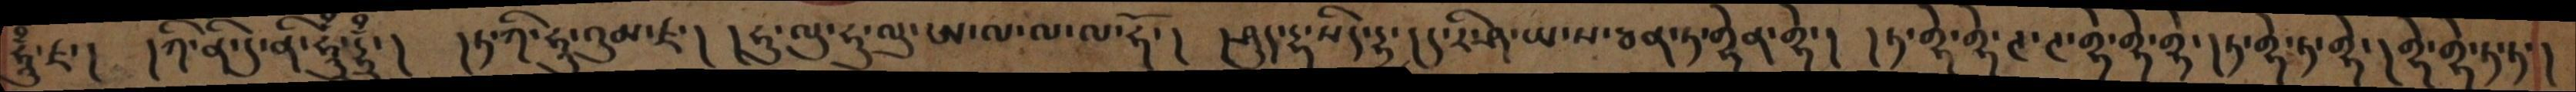ཧཱུཾ་ཛ་།   །ཀི་ནི་དུ་ནི་ཧཱུཾ་ཧཱུཾ་།   །ཏ་ཀི་ཧཱུ་འུམ་ཛ་།  །ཧུ་ལུ་ཧུ་ལུ་ཨ་ལ་ལ་ལ་ཧོ་།  །ཤུད་དྷ་སིད་དྷ་དར་རངིན་ཡ་ས་ཅན་ཏ་གྷེན་གྷེ་། །ཏ་གྷེ་གྷེ་ཊ་ཊ་གྷེ་གྷེ་གྷེ་དཏ་གྷེ་ཏ་གྷེ་དགྷེ་གྷེ་་ཏ་ཏ་།
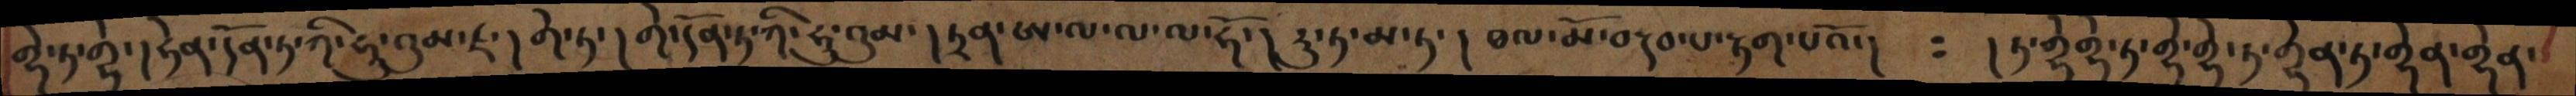གྷེ་ཏ་གྷེ་།ཧེན་དོན་ཏ་ཀི་ཧཱུ་འུམ་ཛ་།  གེ་ཏ་།གེ་དོན་ཏ་ཀི་ཧཱུ་འུམ་།  ཏྲན་ཨ་ལ་ལ་ཧོ་།  རུ་ཏ་མ་ཏ་།  ཐལ་མོ་བརྡབ་པ་རྟག་པའོ་།  ཿ  །ཏ་གྷེགྷེ་ཏ་གྷེ་གྷེ་ཏ་གྷེན་ཏ་གྷེན་གྷེན་
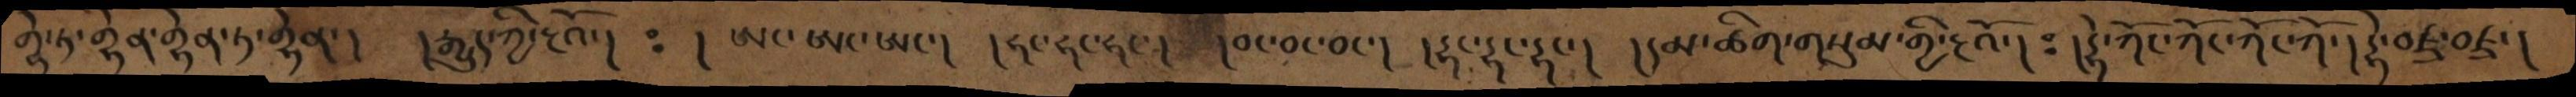གྷེ་ཏ་གྷེན་གྷེན་ཏ་གྷེན་།   །རྒྱུད་ཀྱི་རྔའོ་།  ཿ    ། ཨང་ཨང་ཨང་།  །  ཧང་ཧང་ཧང་།  །བང་བང་བང་།  །དྷང་དྷང་དྷང་།   །དམ་ཚིག་གསུམ་གྱི་རྔའོ་།  ཿཿ    །དྷེ་ཀོང་ཀོང་ཀོང་ཀོ་། དྷེ་བཛྲ་བཛྲ་།
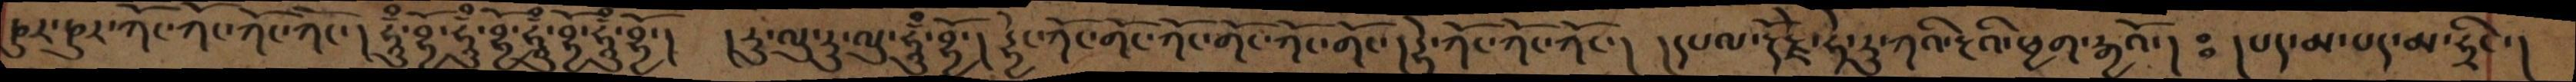ཎུར་ཎུར་ཀོང་ཀོང་ཀོང་ཀོང་།   ཧཱུྃ་བྷྱོ་ཧཱུྃ་བྷྱོ་ཧཱུྃ་བྷྱོ་ཧཱུྃ་བྷྱོ་།   །རུ་ལུ་རུ་ལུ་ཧཱུྃ་བྷྱོ་།   དྷྱེ་ཀོང་གོང་ཀོང་གོང་ཀོང་གོང་།  དྷེ་ཀོང་ཀོང་ཀོང་།  །དཔལ་རྡོ་རྗེ་ཧེ་རུ་ཀའི་རྔའི་ཕྱག་རྒྱའོ་།  ཿ   །པད་མ་པད་མ་ཧྲིང་།
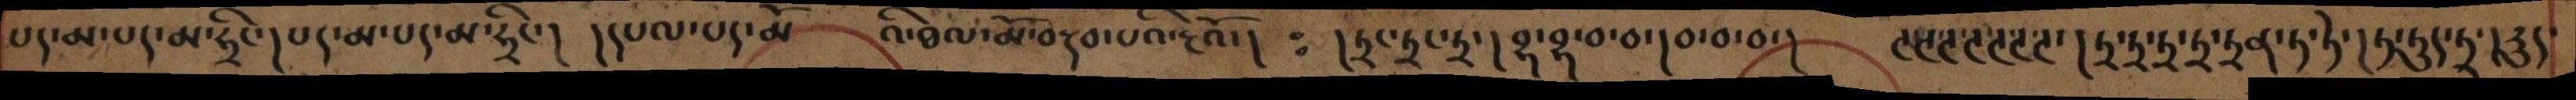པད་མ་པད་མ་ཧྲིང་། པད་མ་པད་མ་ཧྲིང་།  །དཔལ་པད་མོ  འི་ཐལ་མོ་བརྡབ་པའི་རྔའོ་།  ཿ   །ཏྲང་ཏྲང་ཏྲ་། བྷ་བྷ་བ་བ་། བ་བ་བ་།  ཊ་ཊ་ཊ་ཊ་ཊ་ཊ་། ཏྲ་ཏྲ་ཏྲ་ཏྲ་ཏྲན་ཏ་ཏེ་། ཏ་ཏུད་ཏྲ་། རུད་
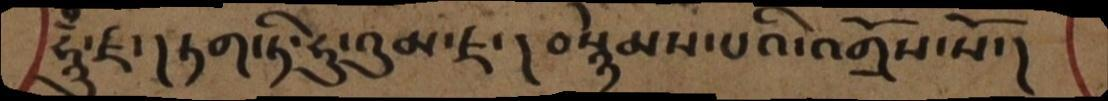ཧཱུཾ་ཛ་།ཏག་ཏི་ཧུ་འུམ་ཛ་།  བསྙེམས་པའི་འགྲོས་སོ་།
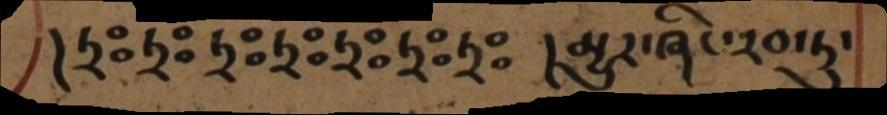། ཏྲཿ  ཏྲཿ  ཏྲཿ  ཏྲཿ  ཏྲཿ  ཏྲཿ  ཏྲཿ      །མྱུར་ཞིང་རབ་ཏུ་
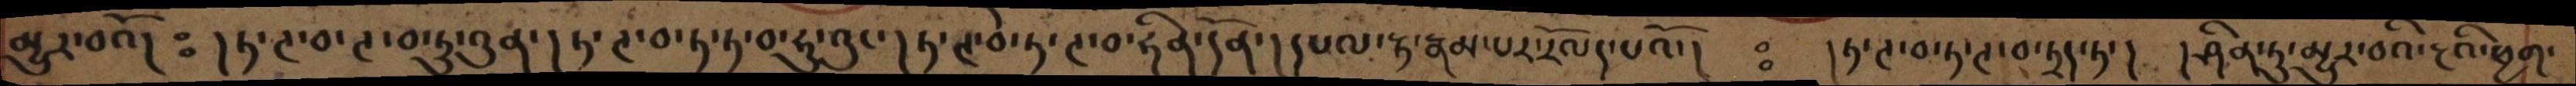མྱུར་བའོ།  ཿ   ། ཏ་ཊ་བ་ཊ་བ་ཏུ་འུན་།ཏ་ཊ་བ་ཏ་ཏ་བ་ཧུ་འུང་།ཏ་ཊ་བེ་ཏ་ཊ་བ་ཧིན་དོན་།དཔལ་རྟ་རྣམ་པར་རོལད་པའོ་།  ཿ    །ཏ་ཊ་བ་ཏ་ཊ་བ་ཏཱད་ཏ་།   །ཤིན་ཏུ་མྱུར་བའི་རྔའི་ཕྱག་
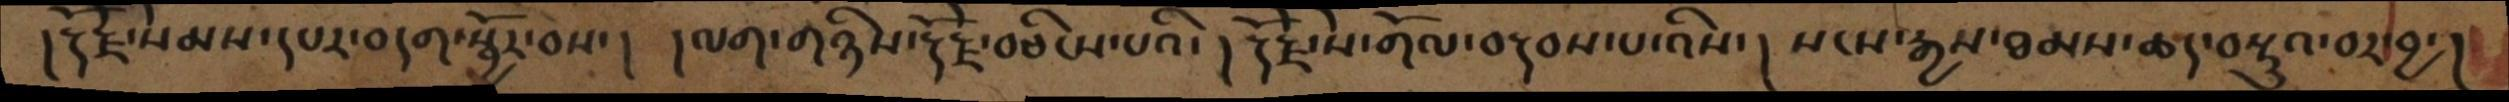། རྡོ་རྗེ་སེམས་དཔར་བདག་སྦྱོར་བས་།   ། ལག་གཉིས་རྡོ་རྗེ་བཅིངས་པའི་། རྡོ་རྗེ་གོལ་བརྡབས་པ་འིས་།  སངས་རྒྱས་ཐམས་ཅད་བསྡུའ་བར་བྱ་།
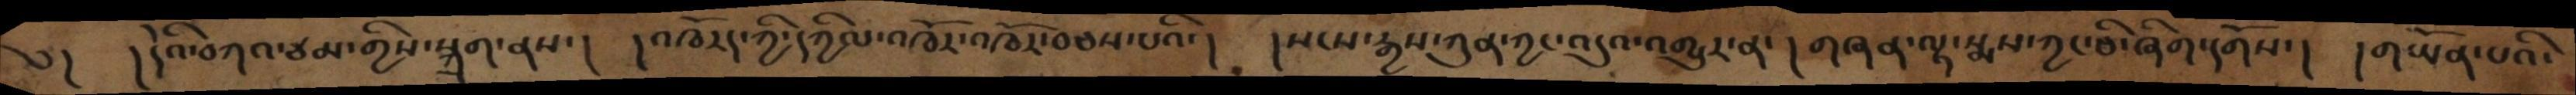༄ །  དེའི་བཀའ་ཙམ་གྱིས་སྐྲག་ནས་།   ། འཁོར་ཀྱི་དཀྱིལ་འཁོར་འཁོར་བཅས་པའི་།  །སངས་རྒྱས་ཀུན་ཀྱང་འདུའ་འགྱུར་ན་།  གཞན་ལྟ་སྨས་ཀྱང་ཅི་ཞིག་དགོས་།  ། གཡོན་པའི་
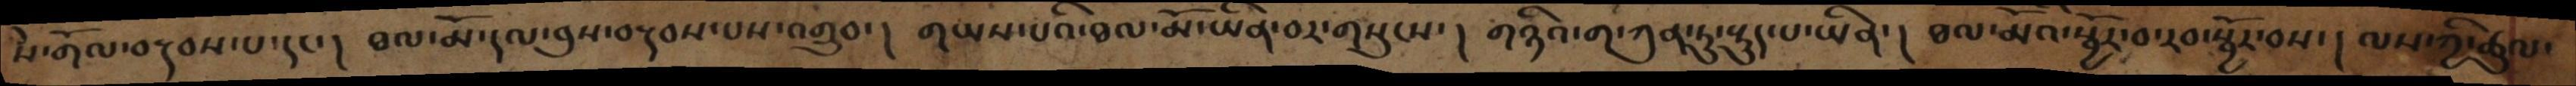སེ་གོལ་བརྡབས་པ་དང་།  ཐལ་མོ་དལ་བུས་བརྡབས་པས་འགྲུབ་།  གཡས་པའི་ཐལ་མོ་ཡིན་བར་གསུངས་།  གཉིའ་ག་ཀུན་ཏུ་སྡུད་པ་ཡིན་།  ཐལ་མོའ་སྦྱོར་བ་རབ་སྦྱོར་བས་།  ལས་ཀྱི་ཚུལ་
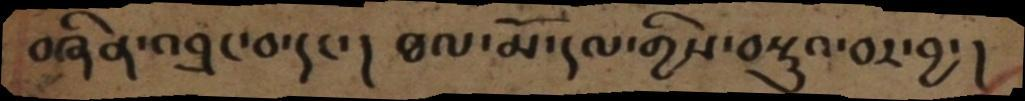བཞིན་འབྲང་བ་དང་།    ཐལ་མོ་དལ་གྱིས་བསྡུའ་བར་བྱ་།
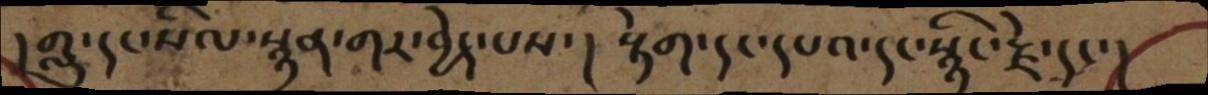། གླུ་དང་སིལ་སྙན་གར་བྱེད་པས་།   སྟེག་དང་དཔའ་དང་སྙིང་རྗེ་དང་།
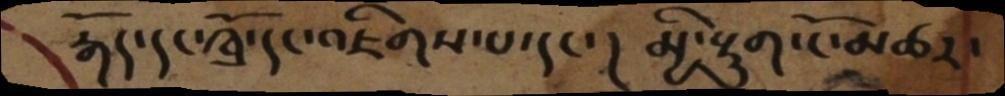རྒོད་དང་ཁྲོ་དང་འཇིགས་པདང་།    མྱི་སྡུག་ངོ་མཚར་
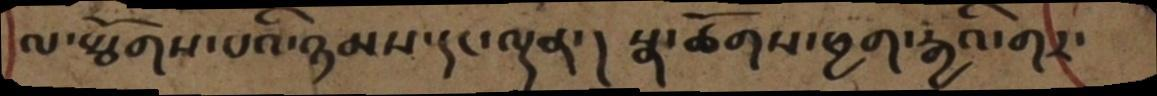ལ་སྩོགས་པའི་ཉམས་དང་ལྡན་།  སྣ་ཚོགས་ཕྱག་རྒྱའི་གར་
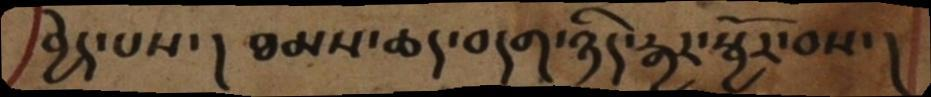བྱེད་པས་།  ཐམས་ཆད་བདག་ཉིད་རྒྱར་སྦྱོར་བས་།
